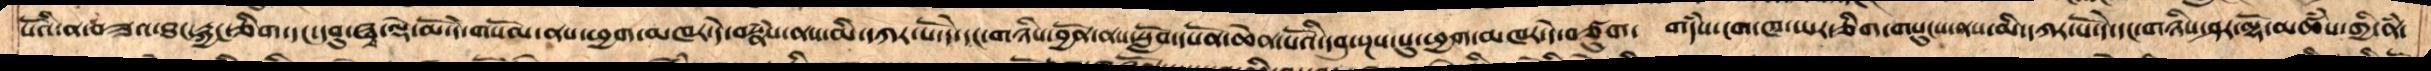པོའི་ན་བཟའ་ཐང་རྐྱང་ཅིག་དང་དབུ་ཞྭ་ལྟེ་མོ་དེ་གསོལ་ནས་ཕྱག་མཁར་དེ་བསྣཾས་ནས་མི་དཀར་པོ་དེ་དང་གཉིས་བྱོན་ནས་སློབ་དཔོན་ཆེན་པོའི་དབུ་སྔས་སུ་ཕྱག་མཁར་དེ་བཙུག་  གདཾས་ངག་ཁ་ཡར་ཅིག་གསུངས་ནས་མི་དཀར་པོ་དེ་དང་གཉིས་ཤར་ལྷོ་མཚཾས་གྱི་ནཾ་
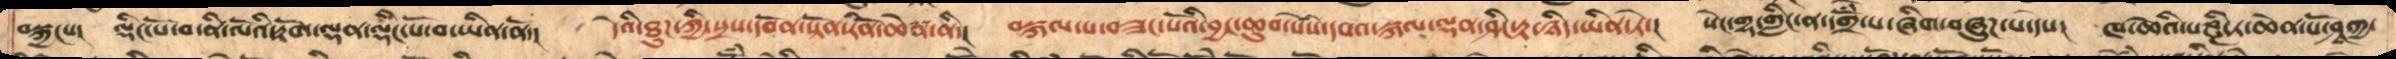བསྐྱངས།   ལྡིང་པོ་བ་ནི་ལོའི་རྟོག་ལྡན་ལྡིང་པོ་བ་ཡིན་ནོ་།   དེའི་ཐུགས་ཀྱི་སྲས་དབོན་སྟོན་རིན་ཆེན་ནི་།   བསྐལ་པ་བཟང་པོའི་བྱང་ཆུབ་སེཾས་དཔའ་སྐལ་ལྡན་ཤིང་རྟ་ཉིད་ཡིན་ཏེ།  སིང་གྷ་གླིང་ན་དགྲོཾ་པ་ཞིག་བཞུཌ་པ་དེས།  ཁ་ཆེའི་པཎྜི་ཏ་ཆེན་པོ་ཤྭཀྱ་
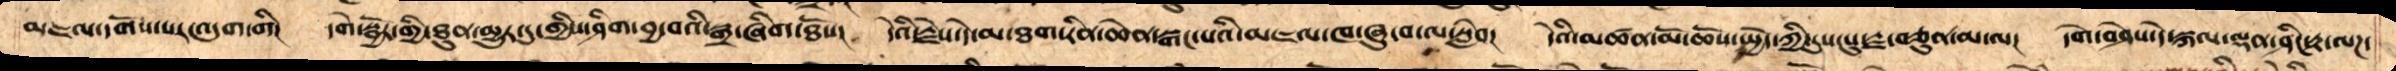མཇལ་དགོས་པར་འདུག་གི།   དགེ་སྦྱོར་གྱི་ཐུན་མྱུར་དུ་གྱིས་ཤིག་བྱ་བའི་སྒྲ་ཞིག་ཐོས།   དེའི་རྗེས་དེ་མ་ཐག་ཏུ་རིན་ཆེན་སྒང་པའི་མཇལ་ཁ་ཞུ་བ་ལ་སླེབ།  དེའི་མཚན་མོ་ཆོས་སྤྱོད་ཀྱི་དུས་སུ་རྗེ་བཙུན་མ་ལ།   དགེ་བཤེས་དེ་སྐལ་ལྡན་ཤིང་རྟ་ལཌ་
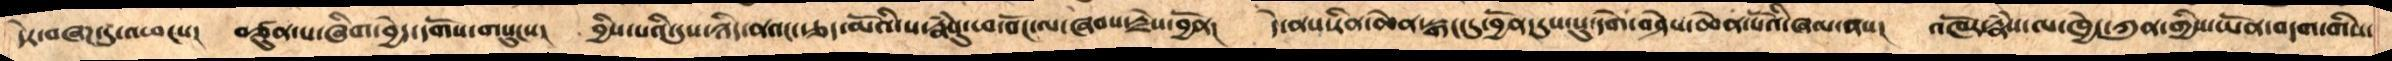དེར་བཞཌ་དུ་འཕངས།   བཙུན་པ་ཞིག་བྱེད་དགོས་གསུངས།   བྱིས་པའི་དུས་ཉིད་ནའང་རྩད་མོའི་ས་རྣཾསུ་ཕ་བོང་ལ་ཞབས་རྗེས་བྱོན།  དེ་ནས་རིན་ཆེན་སྒང་དུ་བྱོན་དུས་སུ་དགེ་བཤེས་ཆེན་པོའི་ཞལ་ནས།   འཁོར་རྣཾས་ལ་ཁྱེད་ཀུན་གྱིས་ཡོན་བདག་གིས་
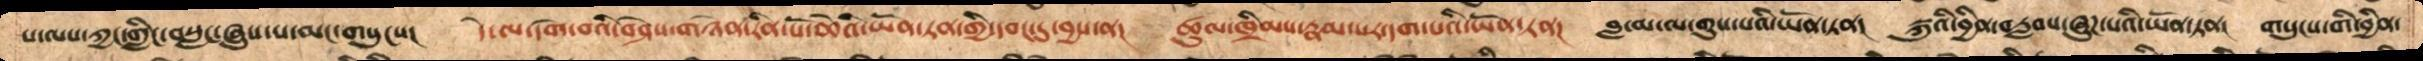པ་ལས་ཀྱང་གླིང་བསླང་ཞུས་པ་མང་གསུངས།    དེ་ལ་དགེ་བའི་བཤེས་གཉེན་རིན་པོ་ཆེའི་་ཡོན་ཏན་དབང་དུ་བྱས་ན།    ཚུལ་ཁྲིམས་རྣམ་པར་དག་པའི་ཡོན་ཏན།     བླ་མ་ལ་གུས་པའི་ཡོན་ཏན།   སྐུའི་བྱན་བརླབས་ཞུཌ་པའི་ཡོན་ཏན།   གསུང་གི་བྱིན་
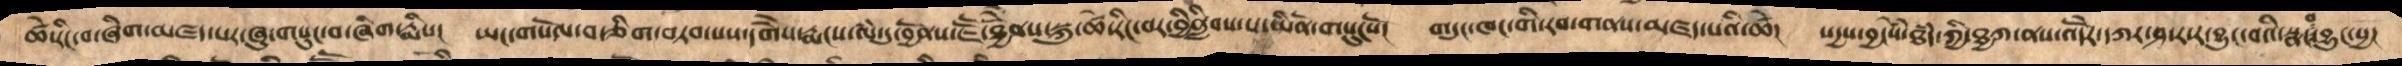ཚེ་རིང་བ་ཞིག་མཛད་པར་ཞུ་གསུང་བ་ཞིག་རྨིས།   ཡང་གསོལ་བ་ཅིག་བཏབ་པས་དགཻས་རྨངས་ལཾ་དུ་བྱོནས་ཇཽ་ཐྱཻནོས་སྐུ་ཚེ་རིང་བར་བྱིནླིབས་པ་ཡིནོ་གསུངསོ།   གདུང་ཁང་གི་རབ་གནས་མཛད་པའི་ཚེ།    སདྱས་བྱསེཾ་ཐཾད་ཀྱི་ཐྱཀ་ནས་འོདརེ་དཀར་ཤ་ར་ར་བྱུང་བའི་སྣང་བ་བྱུང་སྱ།
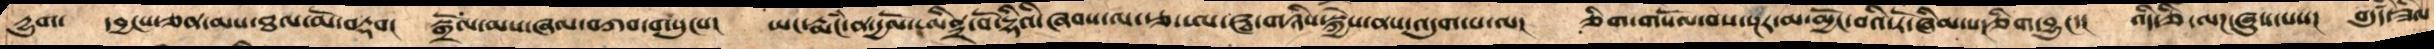དྱུག།   དབྱངས་ཅན་མས་ཐལ་མོ་བརྡབ།   སྒྲོལ་མས་ཞལ་བཀབ་གསུངས།   ཡང་རྨངཾ་ན་དྱལ་པོ་ཨིནྡྲ་བོ་དྷིའི་ཞབས་ལ་རྩྭ་ཨ་ཝ་གཉིས་སྐྱེས་ནས་འདུག་པ་ལ།   ཅིག་གསོལ་བས་སྔར་མ་མྱོང་བའི་རོ་ཞིམ་པ་ཅིག་བྱུང་།  འདི་ཅི་ལཌ་ཞུས་པས།  བདུདརྩི་ཟིལ
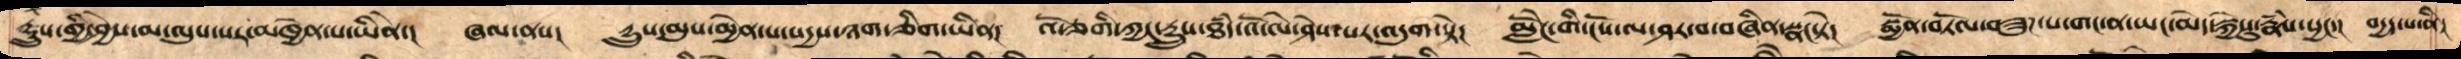དྱྲུས་ཀྱི་ཤྱེས་མ་ལུས་པར་མཁྱེན་པ་ཡིནེ་།   ཞལ་ནས།   དྱྲུས་མུས་མྱེན་པ་སདྱས་ཉག་ཅིག་ཡིན།    འོ་ཅགི་ཀྱང་དྱྲུས་ཐཾད་འོ་ལེ་ཤེས་པར་འདུག་སྟེ།    མླེོང་གི་ངོས་ལ་ཤར་བ་བཞིན་སྣང་ཏེ།   སྨྱོན་བཏོལ་བཟུཌ་པ་གང་ན་ཡང་མེད་སྐྱེསུ་རྣཾས་སྱང་།  བདྱད་པ་ནི།
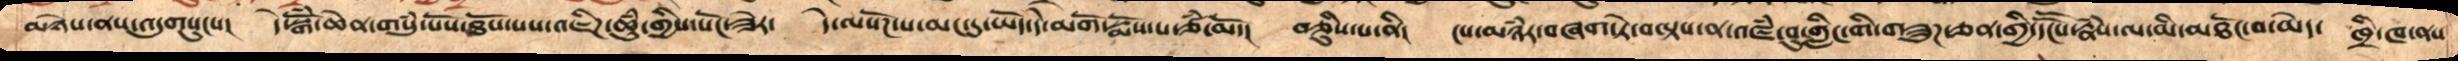མཉེས་ནས་འདུགསུངས།   དེ་སྒོཾ་ཆེན་གསུཾ་པོས་ཐོས་པས་འཇིཌ་ཆུཾ་གྱིས་སོང་ཟེར།   དེ་ལསོཌ་པ་མང་དུ་ཡོད་དེ་མགོ་སྨོས་པ་ཙཾ་མོ་།   བཅིུས་པ་ནི།   ངས་མཉཾར་བཞག་ཏེ་བལྟས་ན་འཛཾ་བུ་གླིང་གི་གཟུཌ་ཅན་གྱི་དངཽས་རྣཾས་ལ་མི་མཐོང་བ་མེད།   ཁྲི་ཁ་ནས
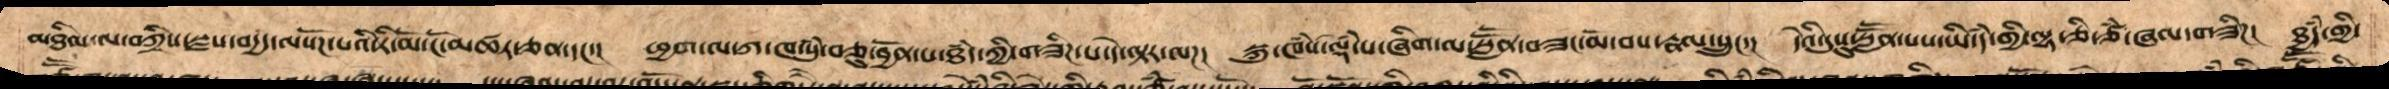མཐིལ་ལ་བཀྲིས་སྫས་བདྱད་ལསོཌ་པའི་རི་མོ་ངོ་མཚར་ཅན་དང་།   ཕྱག་ལ་ཀ་ཁ་སུཾ་བཅུ་བྱོན་པ་ཐཾད་ཀྱི་གཟིཌ་པ་དེ་ལྟར་ལཌ།   སྐུ་ཁཾས་ལྟཾ་པ་ཞིག་ལ་སླཽན་བཟང་མོ་བས་རྣལ་སྲུང་།   དེའི་དུས་སུ་སླཽན་པས་ཡི་དཾ་གྱི་ལྷ་ཅི་ཙཾ་ཞལ་གཟིཌ།  ཐྱཾད་གྱི་
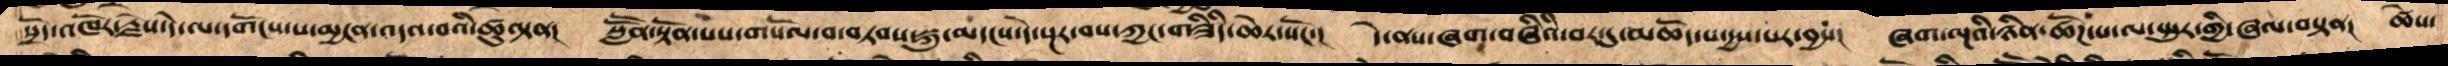སྲོད་འཁོར་རྗེས་དེ་ལ་དགོངས་པ་མྱངན་ལས་འདའ་བའི་ཚུལྟན།   སླཽན་སྟོན་པས་གསོལ་བ་བཏབས་སྐུ་མདངས་དེ་སྔར་བས་ཀྱང་གཟིདི་ཆེར་སོང་།   དེ་ནས་ཞག་བཞིའི་བར་དུ་མཆོད་པ་དྱས་པར་བྱས།   ཞག་ལྔའི་ཉིན་ཚོཌ་པ་ལ་སྤུར་གྱི་ཞལ་བསྟན།  ཚེས་
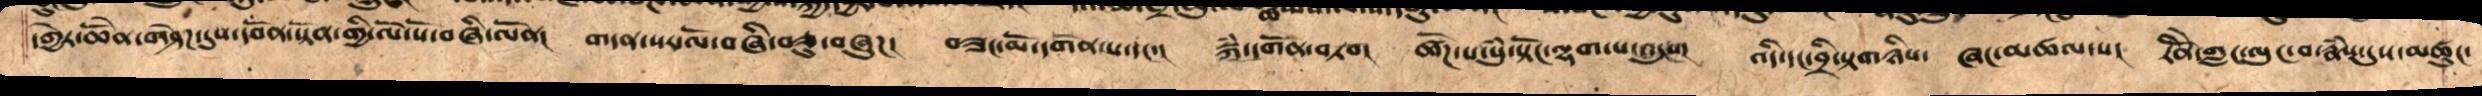དགྱེར་ཆེནོ་གཤེཌ་དུས་དབོན་སྟོན་གྱི་ལོ་སོ་བཞི་ལོན།   གདན་སར་ལོ་བཞི་བཅུ་བཞུཌ།  བཟང་མོ་དགོན་པ་དང་།  སྐཾ་དགོན་བཏབ།  ཚོཌ་པ་སུཾ་སྟོང་ལྷག་པ་འདུས།  འདི་དང་བྲི་སྟག་གཉིས།  ཞང་མཚལ་པ།  རིནོ་ེ་གླང་ལུང་བ་རྣཾས་དུས་མཚུང་
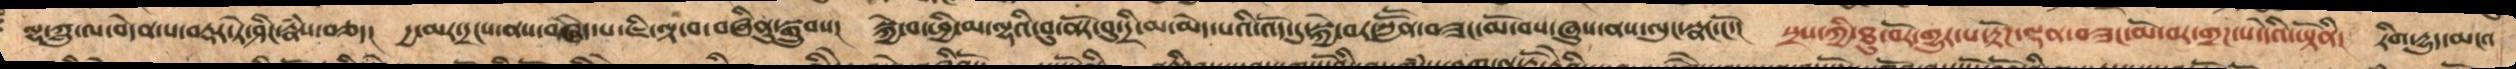ལྷ་ཀླུ་ལ་བདེན་པ་བརྡར་ཏེ་ཤིང་རྣཾས་བཅད། དྱ་མར་དྲངས་ནས་བཞེད་པ་ཇི་ལྟ་བ་བཞིནུ་སྒྲུབས།   སྐྱེ་བ་ཕྱི་མ་ལྷའི་བུ་ནོར་བུ་དྲི་མ་མེད་པའི་འོད་དུ་སྐྱེ་བར་སླཽན་བཟང་མོ་བས་ཞུས་ནས་ལུང་སྣང་ངོ་།   སྲས་ཀྱི་ཐུ་བོར་གྱུར་པ་རྟོཌ་ལྡན་བཟང་མོ་བར་གྲཌ་པ་དེའི་ཡྟོནི།   རིག་དྱུད་མངའ
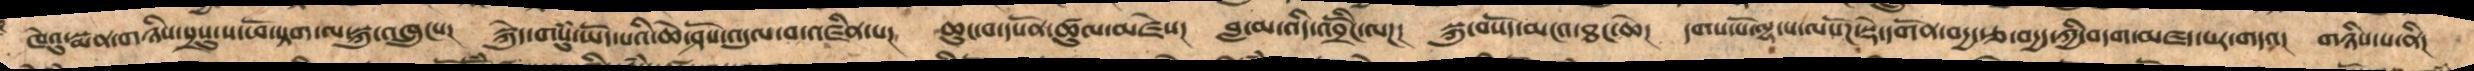ཁེའུ་སྨན་གཉིས་སྲསུ་ས་ཕོ་སྟག་ལ་སྐུ་འཁྲུངས།   སྐེུད་གསུཾ་ཡོད་པའི་ཆེ་ཤོས་འདུལ་བ་འཛིན་པ།  ཆུང་བ་དཔོན་ཚུལ་མཛེས།   བླ་མ་འདི་འབྲོངེ་ལཌ།   སྐུ་བསོད་མངའ་ཐང་ཆེ།  དགས་པོ་ལྷ་ས་ལསོཌ་སྡེ་དགོན་བདྱ་རྩ་བདྱད་ཀྱི་བདག་མཛད་པར་གདའ།   གཉིས་པ་ནི།
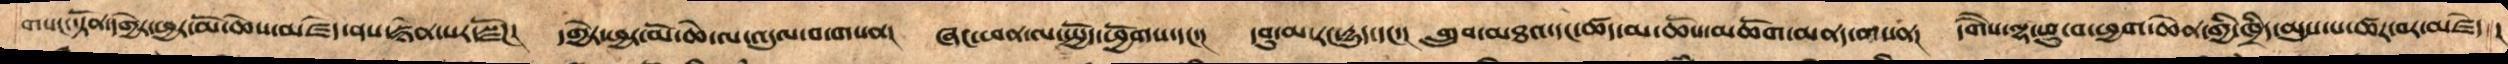གསང་སྟོན་དགྱེར་ཕྱར་མོ་ཆེས་མཛད་ནས་སྙེན་པར་སྫོཌ།   དགྱེར་ཕྱར་མོ་ཆེ་ལ་འདུལ་བ་གསན།  ཞང་ཕན་ལ་སྤྱོད་ཕྱོགས་དང་།   དབུ་མ་རང་དྱུད་དང་།   གྲུབ་མཐའ་དང་ཚད་མ་ཆོས་མཆོག་མནད་གསན།   དགཻས་ལྷ་ཕུ་བ་ཕྱག་ཆེན་གྱི་ཁྲིད་མུས་པ་ཚར་བར་མཛོད།
